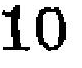10
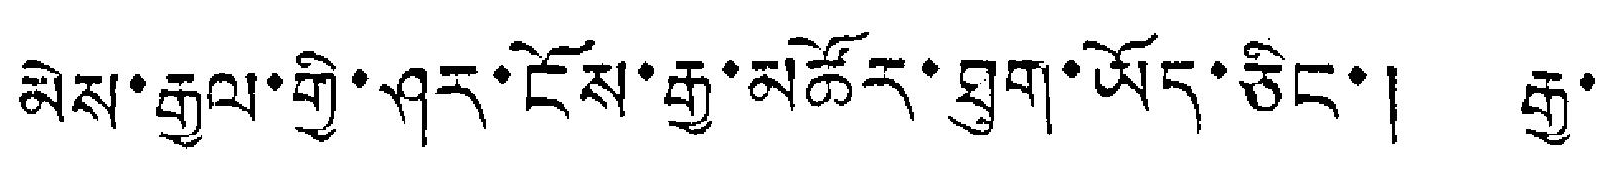མེས་རྒྱལ་གྱི་ཤར་ངོས་རྒྱ་མཚོར་ཐུག་ཡོད་ཅིང་། རྒྱ་
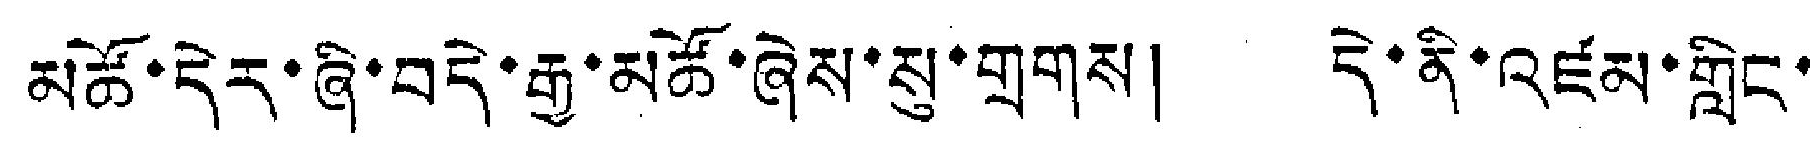མཚོ་དེར་ཞི་བདེ་རྒྱ་མཚོ་ཞེས་སུ་གྲགས། དེ་ནི་འཛམ་གླིང་
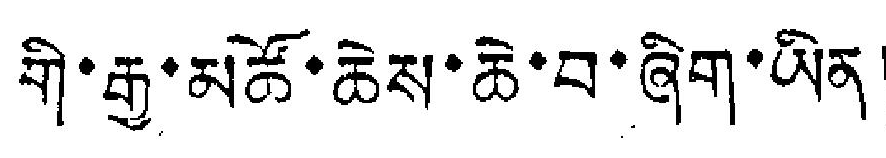གི་རྒྱ་མཚོ་ཆེས་ཆེ་བ་ཞིག་ཡིན།
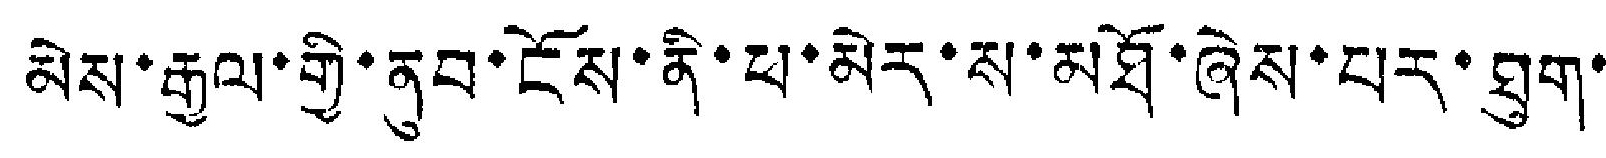མེས་རྒྱལ་གྱི་ནུབ་ངོས་ནི་ཕ་མེར་ས་མཐོ་ཞེས་པར་ཐུག་
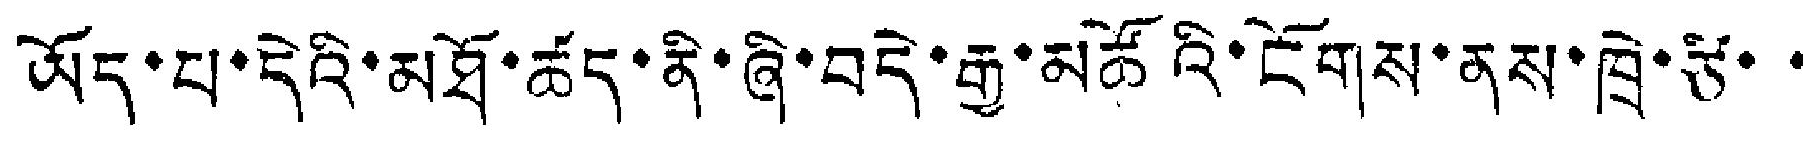ཡོད་པ་དེའི་མཐོ་ཚད་ནི་ཞི་བདེ་རྒྱ་མཚོའི་ངོགས་ནས་ཁྲེ་ཙི་་
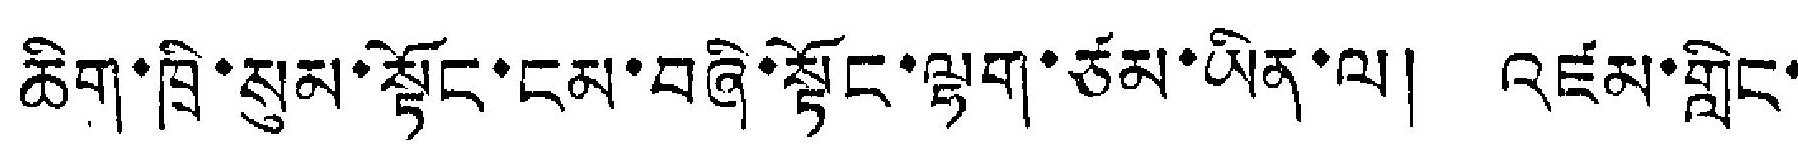ཆིག་ཁྲི་སུམ་སྟོང་ངམ་བཞི་སྟོང་ལྷག་ཙམ་ཡིན་ལ། འཛམ་གླིང་
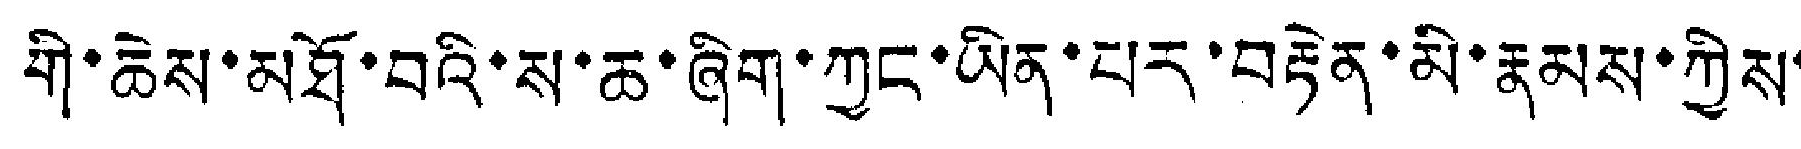གི་ཆེས་མཐོ་བའི་ས་ཆ་ཞིག་ཀྱང་ཡིན་པར་བརྟེན་མི་རྣམས་ཀྱིས་
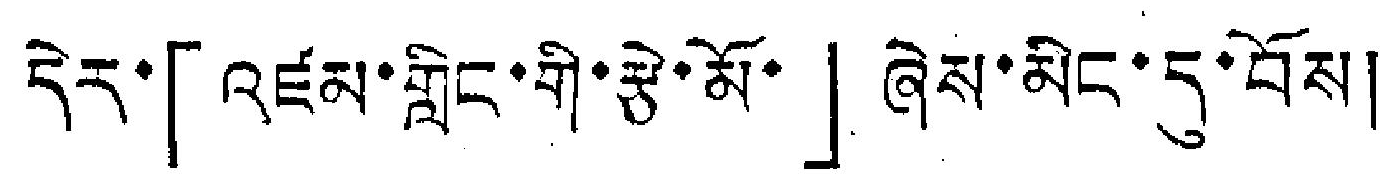དེར་「འཛམ་གླིང་གི་རྩེ་མོ་」ཞེས་མིང་དུ་བོས།
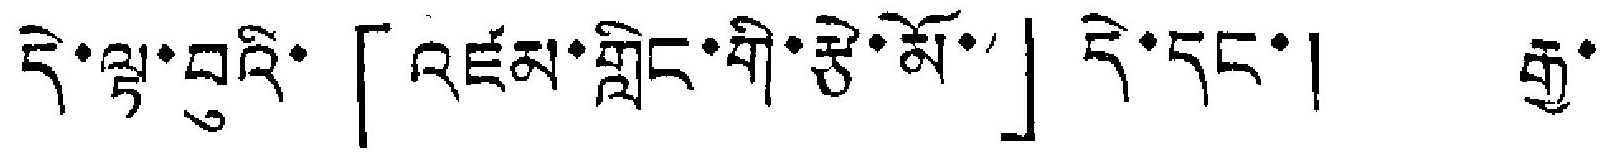དེ་ལྟ་བུའི་「འཛམ་གླིང་གི་རྩེ་མོ་」དེ་དང་། རྒྱ་
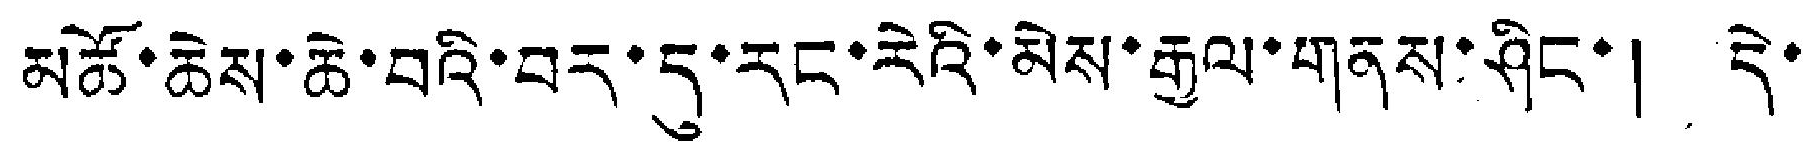མཚོ་ཆེས་ཆེ་བའི་བར་དུ་རང་རེའི་མེས་རྒྱལ་གནས་ཤིང་། དེ་
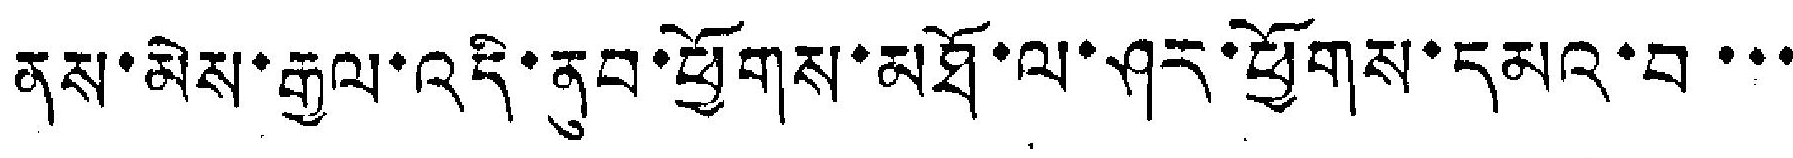ནས་མེས་རྒྱལ་འདི་ནུབ་ཕྱོགས་མཐོ་ལ་ཤར་ཕྱོགས་དམའ་བ་་་
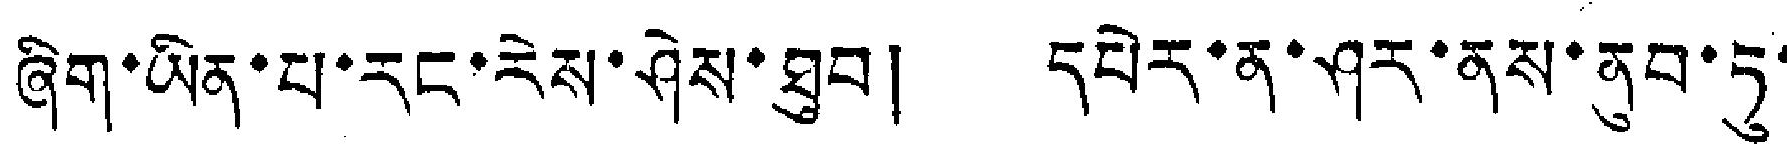ཞིག་ཡིན་པ་རང་རེས་ཤེས་ཐུབ། དཔེར་ན་ཤར་ནས་ནུབ་ཏུ་
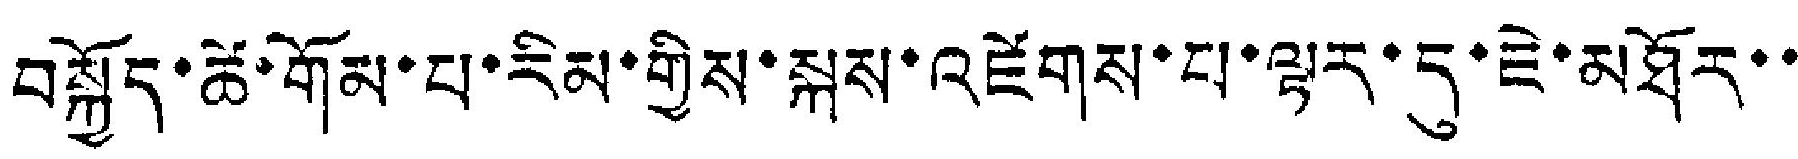བསྐྱོད་ཚེ་གོམ་པ་རིམ་གྱིས་སྐས་འཛེགས་པ་ལྟར་དུ་ཇེ་མཐོར་་
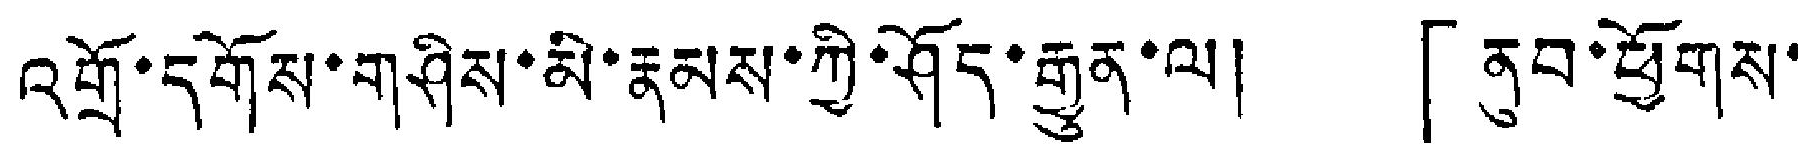འགྲོ་དགོས་གཤིས་མི་རྣམས་ཀྱི་ཤོད་རྒྱུན་ལ། 「ནུབ་ཕྱོགས་
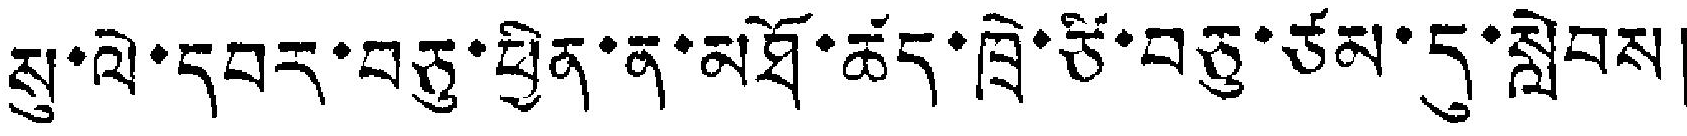སུ་ལེ་དབར་བཅུ་ཕྱིན་ན་མཐོ་ཚད་ཁྲེ་ཙི་བཅུ་ཙམ་དུ་སླེབས།
